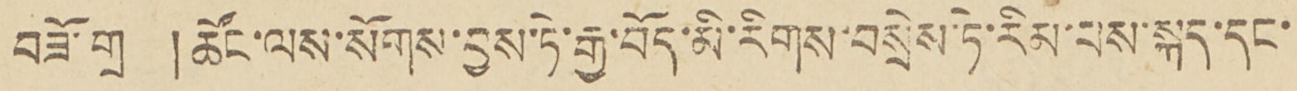བཟོ་གྲ །ཚོང་ལས་སོགས་བྱས་ཏེ་རྒྱ་བོད་རིགས་བསྲེས་ཏེ་རིམ་པས་སྐད་དང་
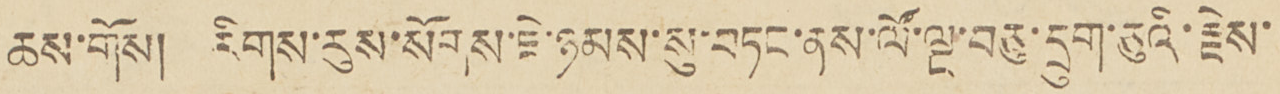ཆས་གོས། རིགས་སུ་སོགས་ཇེ་ཉམས་སུ་བཏང་ནས་ལོ་ལྔ་བཅུ་དྲུག་ཅུའི་རྗེས་
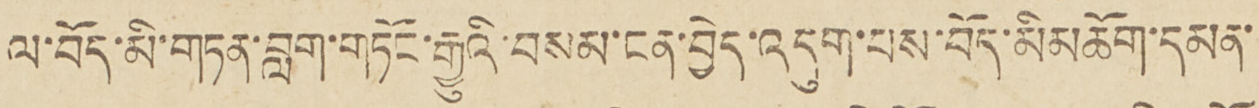ལ་བོད་མི་གཏན་བླག་གཏོང་རྒྱུའི་བསམ་ངན་བྱེད་འདུག་པས་བོད་མི མཆོག་དམན་
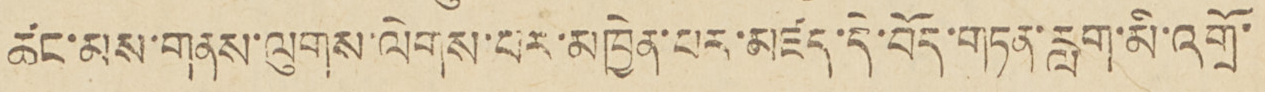ཚང་མས་གནས་ལུགས་ལེགས་པར་མཁྱེན་པར་མཛད་དེ་བོད་གཏམ་རླག་མི་འགྲོ་
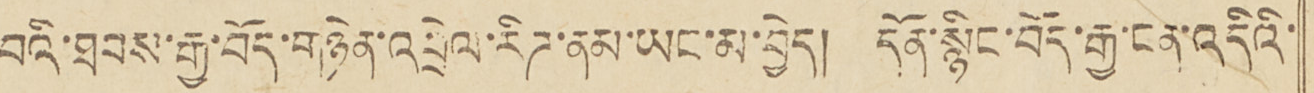བའི་ཐབས་རྒྱ་བོད་གཉེན་འབྲེལ་རིཌ་ནམ་ཡང་མ་བྱེད། དོན་སྙིང་བོད་རྒྱ་ངན་འདིའི་
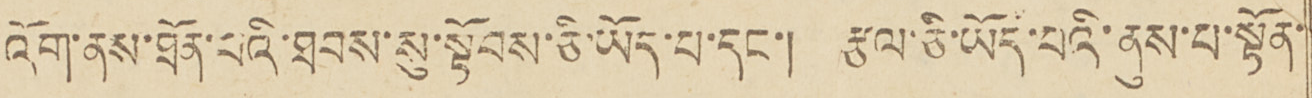འོག་ནས་ཐོན་པའི་ཐབས་སུ་སྟོབས་ཅི་ཡོད་པ་དང་། རྩལ་ཅི་ཡོད་པའི་ནུས་ལ་སྟོན་
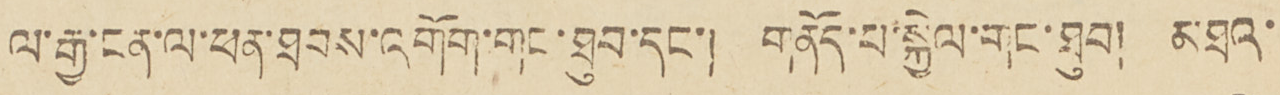ལ་རྒྱ་ངན་ལ་ཕན་ཐབས་འགོག་གང་ཐུབ་དང་། གནོན་པ་སྐྱེལ་གང་ཐུབ། མཐའ་
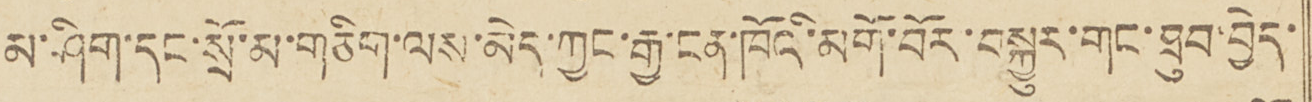མ་ཤིག་དང་སྲོ་མ་གཅིག་ལས་མེད་ཀྱང་རྒྱ་ངན་ཁོའི་མགོ་བོར་བསྐྱུར་གང་ཐུབ་བྱེད་
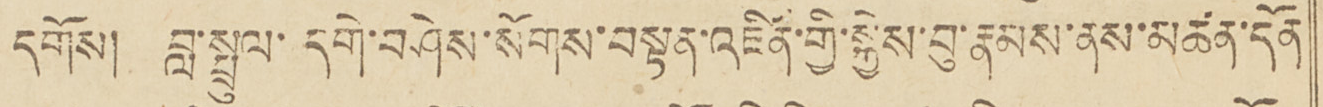དགོས། བླ་སྤྲུལ་དགེ་བཤེས་སོགས་བསྟན་འཛིན་གྱི་སྐྱེས་བུ་རྣམས་ནས་མཚན་དོན་
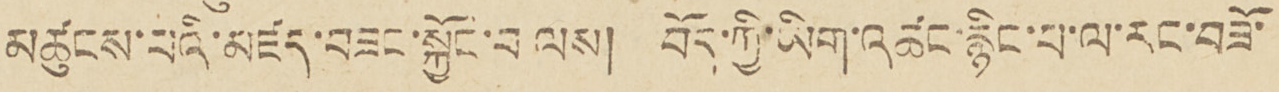མཚུངས་པའི་མཛད་བཟང་སྐྱོང་བ་ལས། བོད་ཀྱི་ཡིག་འཚང་རྙིང་པ་ལ་རང་བཟོ་
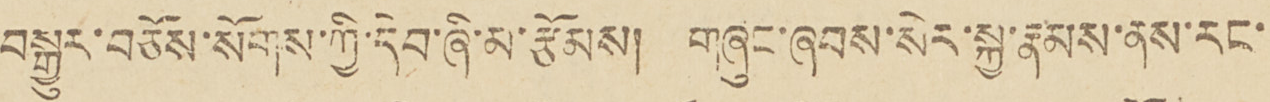བསྒྱུར་བཅོས་སོགས་ཀྱི་དེབ་ཞི་མ་རྩོམས། གཞུང་ཞབས་སེར་སྐྱ་རྣམས་ནས་རང་
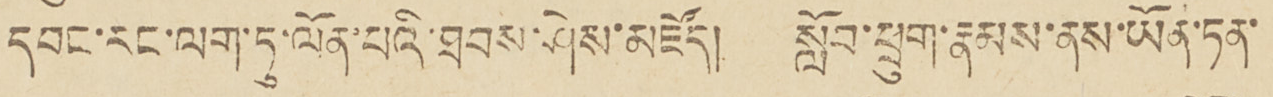དབང་རང་ལག་ཏུ་ལོན་པའི་ཐབས་ཤེས་མཛོད། སློབ་ཕྲུག་རྣམས་ནས་ཡོན་ཏན་
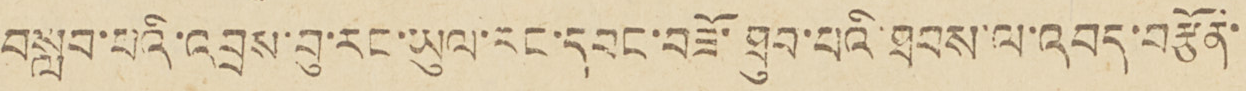བསླབ་པའི་འབྲས་བུ་རང་ཡུལ་རང་དབང་བཟོ་ཐུབ་པའི་ཐབས་ལ་འབད་བརྩོན་
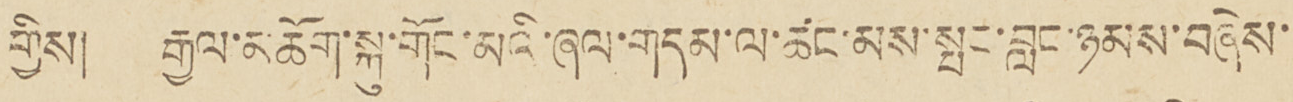གྱིས། རྒྱལ་མཆོག་སྐུ་གོང་མའི་ཞལ་གདན་ལ་ཚང་མས་སྤང་བླང་ཉམས་བཞེས་
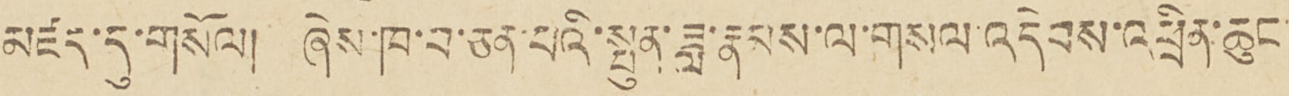མཛད་དུ་གསོལ། ཞེས་ཁ་བ་ཅན་པའི་སྤུན་ཟླ་རྣམས་ལ་གསལ་འདེབས་འཕྲིན་ཆུང་
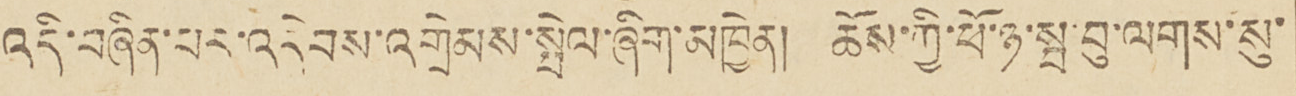འདི་བཞིན་པར་འདེབས་འགྲེམས་སྤེལ་ཞིག་མཁྱེན། ཆོས་ཀྱི་ཕོ་ཉ་སྤ་བུ་ལགས་སུ་
